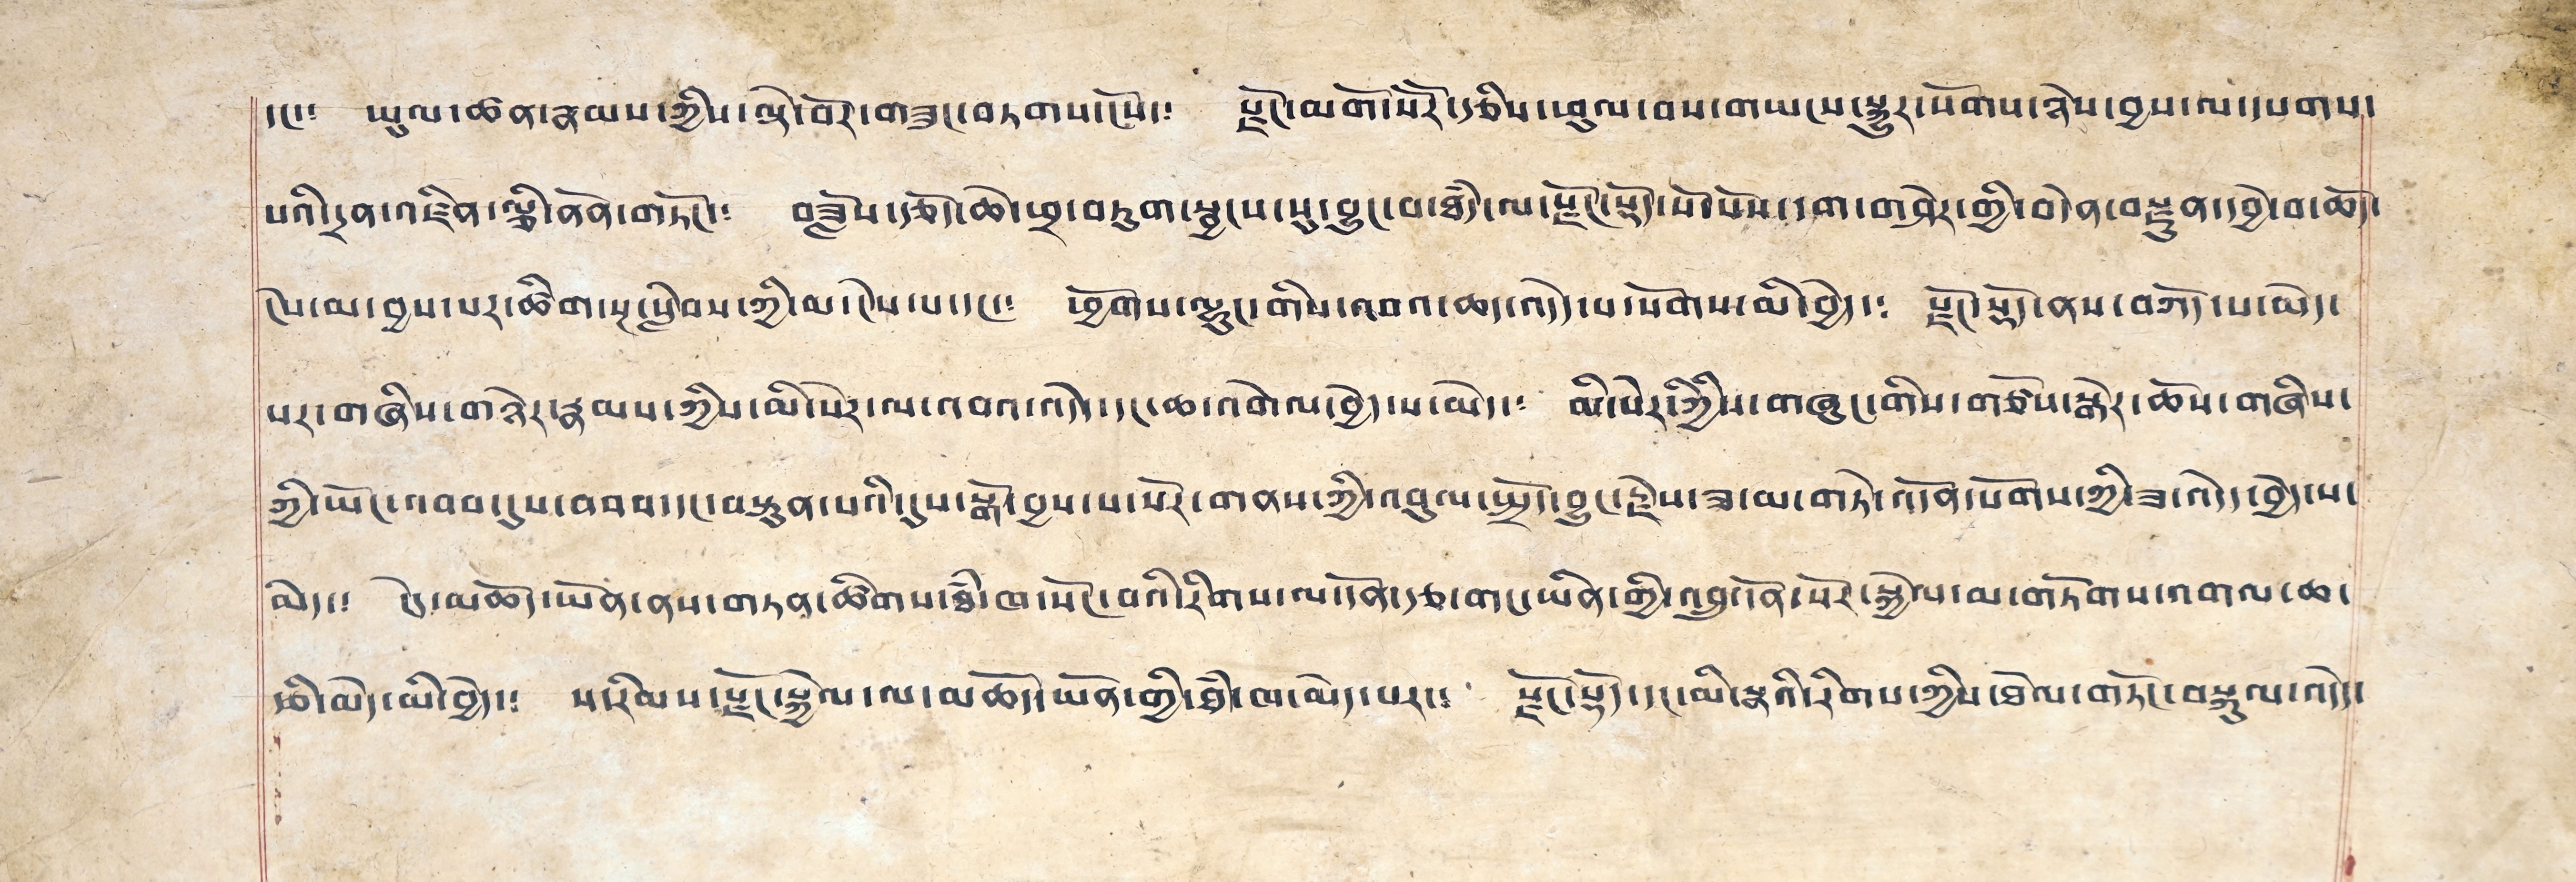དང༴ ཡུལ་ཚན་རྣམས་ཀྱིས་ལྡེ་བོར་གཟུང་བཏགས་ངོས་༴ རྫོང་མགོ་སོ་སོར་རྩིས་ཕུལ་བས་གཡངས་སྐྱུར་སོགས་ཉེས་བྱས་ལ་དཔགས་
པའི་དྲན་འཛིན་ལྕི་ནོན་གཏོང་༴ བཟློས་རྩོད་ཆེ་ཕྲ་བཏུག་སྦྱངས་སུ་བྱུང་བ་ཐཾད་ལ་རྫོང་སྡོད་སོ་སོས་དག་གཤེར་གྱི་བདེན་བརྫུན་བྱེ་བ་ཆོད་
ངེས་མ་བྱས་པར་ཚིག་སྔ་སླེབས་ཀྱི་མ་ངེས་པ་དང་༴ ཕྱོགས་ལྷུང་གིས་འབའ་ཆད་འདེད་པ་སོགས་མི་བྱེད་༴ རྫོང་སྡོད་ནས་བཀོད་པ་མེད་
པར་གཞིས་གཉེར་རྣམས་ཀྱིས་མི་སེར་ལ་འབའ་འདེད་དང་ཆ་འགེལ་བྱེད་པ་མེད་༴ མི་སེར་ཀྱིསི་གཞུང་གིས་གཙོས་སྒེར་ཆོས་གཞིས་
ཀྱི་ཡོང་འབབ་དུས་འབབ་དང་བསྟུན་པའི་དུས་སྒོ་བྱས་པ་སེར་གནས་ཀྱི་འབུལ་སྤྲོད་བྱུང་རྗེས་ཟ་མ་གཏེ་འདོན་སོགས་ཀྱི་ཟ་འདེད་བྱེད་པ་
མེད་༴ དེ་མཆོད་ཡོན་ནས་གཏན་ཚིགས་ཐཾ་ཁ་སོང་བའི་རིགས་ལ་དོན་རྩ་གང་ཡིན་གྱི་འབྲུ་དོན་པོར་སྐྱེལ་མ་གཏོགས་འགལ་ཆ་
རྩི་མེད་མི་བྱེད་༴ ས་རིམས་རྫོང་སྐྱེལ་ལ་མཆོད་ཡོན་གྱི་ཐཾ་ཁ་མེད་པར་༴ རྫོང་སྟོད་དང་མི་སྣའི་རིགས་ཀྱིས་ཐེལ་གཏོང་བསྐུལ་འདེད་
